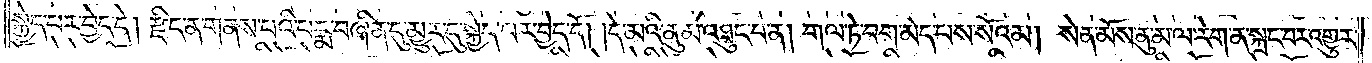སྐྱེད་པར་བྱེད་དེ། རྫིང་ན་གནས་པའི་པདྨ་བཞིན་དུ་མྱུར་དུ་སྐྱེད་པར་བྱེད་དོ། །དེ་མའི་ནུ་མ་འཐུང་བ་ན། གལ་ཏེ་བག་མེད་པས་སོའམ། སེན་མོས་ནུ་མ་ལ་རེག་ན་སྐྲང་བར་འགྱུར་
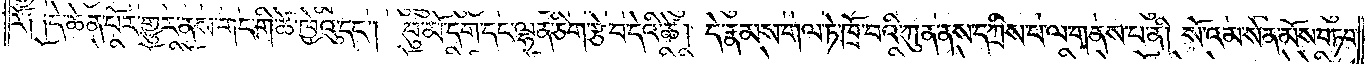རོ༑ ༑དེ་ཆེན་པོར་གྱུར་ནས་གང་གི་ཚེ་ཁྱེའུ་དང༌། བུ་མོ་དག་དང་ལྷན་ཅིག་རྩེ་བ་དེའི་ཚེ། དེ་རྣམས་གལ་ཏེ་ཁྲོ་བའི་ཀུན་ནས་དཀྲིས་པ་ལ་གནས་པ་ནི། སོ་འམ་སེན་མོས་བཏབ་
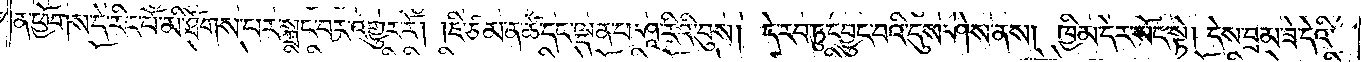ན་ཕྱོགས་དེ་རིང་པོ་མི་ཐོགས་པར་སྐྲང་བར་འགྱུར་རོ། །ཇི་ཙམ་ན་ཚེ་དང་ལྡན་པ་ཤཱ་རིའི་བུས། དེ་རབ་ཏུ་དབྱུང་བའི་དུས་ཤེས་ནས། ཁྱིམ་དེར་སོང་སྟེ། དེས་བྲམ་ཟེ་དེའི་
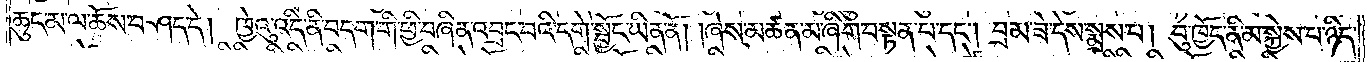ཆུང་མ་ལ་ཆོས་བཤད་དེ། ཁྱེའུ་འདི་ནི་བདག་གི་ཕྱི་བཞིན་འབྲང་བའི་དགེ་སྦྱོང་ཡིན་ནོ། །ཞེས་མཚན་མ་ཞིག་བསྟན་པ་དང༌། བྲམ་ཟེ་དེས་སྨྲས་པ། བུ་ཁྱོད་ནི་མ་སྐྱེས་པ་ཉིད་
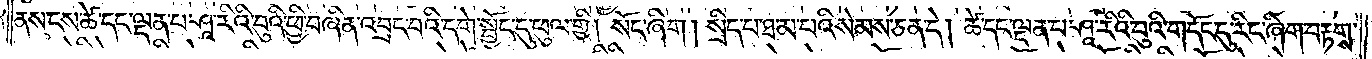ནས་ངས་ཚེ་དང་ལྡན་པ་ཤཱ་རིའི་བུའི་ཕྱི་བཞིན་འབྲང་བའི་དགེ་སྦྱོང་དུ་ཕུལ་གྱི། སོང་ཞིག །སྲིད་པ་ཐ་མ་པའི་སེམས་ཅན་དེ། ཚེ་དང་ལྡན་པ་ཤཱ་རིའི་བུའི་གདོང་དུ་རིང་ཞིག་བརྟགས་
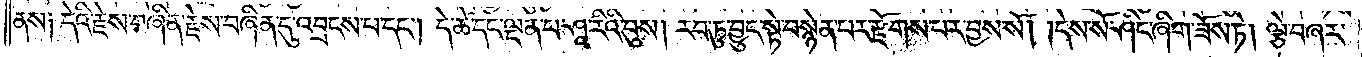ནས། དེའི་རྗེས་བཞིན་རྗེས་བཞིན་དུ་འབྲངས་པ་དང༌། དེ་ཚེ་དང་ལྡན་པ་ཤཱ་རིའི་བུས། རབ་ཏུ་བྱུང་སྟེ་བསྙེན་པར་རྫོགས་པར་བྱས་སོ། །དེས་སོ་ཤིང་ཞིག་ཟོས་ཏེ། ལྕེ་བཞར་
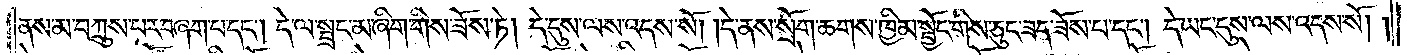ནས་མ་བཀྲུས་པར་བཞག་པ་དང༌། དེ་ལ་སྦྲང་མ་ཞིག་གིས་ཟོས་ཏེ། དེ་དུས་ལས་འདས་སོ། །དེ་ནས་སྲོག་ཆགས་ཁྱིམ་སྦྱོང་གིས་ཅུང་ཟད་ཟོས་པ་དང༌། དེ་ཡང་དུས་ལས་འདས་སོ། །
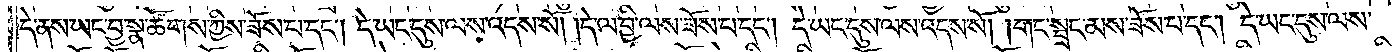དེ་ནས་ཡང་བྱ་སྣ་ཚོགས་ཀྱིས་ཟོས་པ་དང༌། དེ་ཡང་དུས་ལས་འདས་སོ། །དེ་ལ་བྱི་ལས་ཟོས་པ་དང༌། དེ་ཡང་དུས་ལས་འདས་སོ། །གང་སྦྲང་མས་ཟོས་པ་དང༌། དེ་ཡང་དུས་ལས་
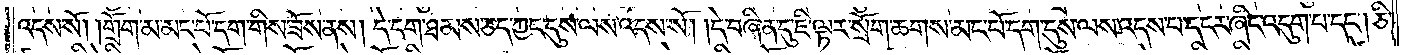འདས་སོ། །གྲོག་མ་མང་པོ་དག་གིས་ཟོས་ནས། དེ་དག་ཐམས་ཅད་ཀྱང་དུས་ལས་འདས་སོ། །དེ་བཞིན་དུ་ཇི་ལྟར་སྲོག་ཆགས་མང་པོ་དག་དུས་ལས་འདས་པ་དངར་ཞིང་འདུག་པ་དང༌། ཅི་
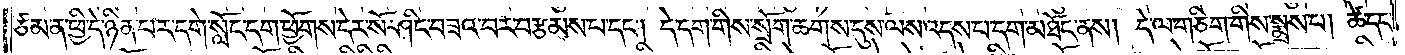ཙམ་ན་ཕྱི་དེ་ཉིན་པར་དགེ་སློང་དག་ཕྱོགས་དེར་སོ་ཤིང་བཟའ་བར་བརྩམས་པ་དང༌། དེ་དག་གིས་སྲོག་ཆགས་དུས་ལས་འདས་པ་དག་མཐོང་ནས། དེ་ལ་གཅིག་གིས་སྨྲས་པ། ཚེ་དང་
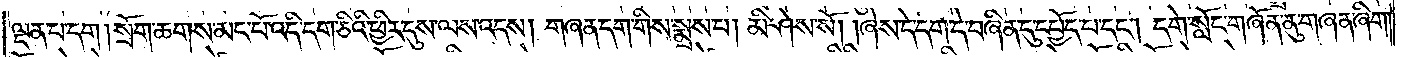ལྡན་པ་དག །སྲོག་ཆགས་མང་པོ་འདི་དག་ཅིའི་ཕྱིར་དུས་ལས་འདས། གཞན་དག་གིས་སྨྲས་པ། མི་ཤེས་སོ། །ཞེས་དེ་དག་དེ་བཞིན་དུ་དཔྱོད་པ་དང༌། དགེ་སློང་གཞོན་ནུ་གཞན་ཞིག་
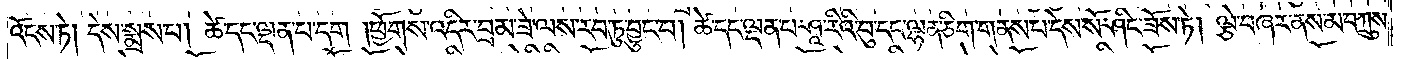འོངས་ཏེ། དེས་སྨྲས་པ། ཚེ་དང་ལྡན་པ་དག །ཕྱོགས་འདིར་བྲམ་ཟེ་ལས་རབ་ཏུ་བྱུང་བ། ཚེ་དང་ལྡན་པ་ཤཱ་རིའི་བུ་དང་ལྷན་ཅིག་གནས་པ་དེས་སོ་ཤིང་ཟོས་ཏེ། ལྕེ་བཞར་ནས་མ་བཀྲུས་
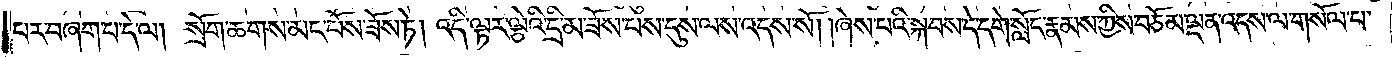པར་བཞག་པ་དེ་ལ། སྲོག་ཆགས་མང་པོས་ཟོས་ཏེ། འདི་ལྟར་ལྕེའི་དྲི་མ་ཟོས་པས་དུས་ལས་འདས་སོ། །ཞེས་པའི་སྐབས་དེ་དགེ་སློང་རྣམས་ཀྱིས་བཅོམ་ལྡན་འདས་ལ་གསོལ་པ་
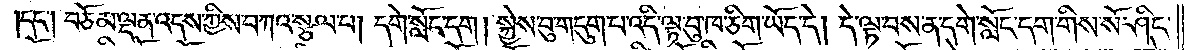དང༌། བཅོམ་ལྡན་འདས་ཀྱིས་བཀའ་སྩལ་པ། དགེ་སློང་དག། སྐྱེས་བུ་གདུག་པ་འདི་ལྟ་བུ་ཁ་ཅིག་ཡོད་དེ། དེ་ལྟ་བས་ན་དགེ་སློང་དག་གིས་སོ་ཤིང་
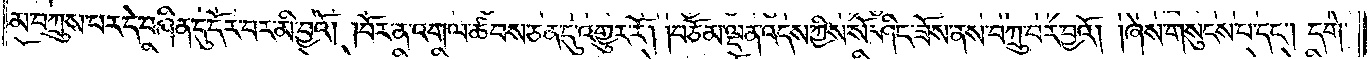མ་བཀྲུས་པར་དེ་བཞིན་དུ་དོར་བར་མི་བྱའོ། །བོར་ན་འགལ་ཚབས་ཅན་དུ་འགྱུར་རོ། །བཅོམ་ལྡན་འདས་ཀྱིས་སོ་ཤིང་ཟོས་ནས་བཀྲུ་བར་བྱའོ། །ཞེས་གསུངས་པ་དང༌། དགེ་
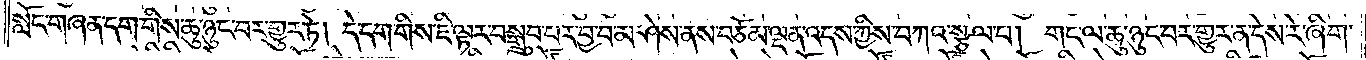སློང་གཞན་དག་གིས་ཆུ་ཉུང་བར་གྱུར་ཏེ། དེ་དག་གིས་ཇི་ལྟར་བསྒྲུབ་པར་བྱ་བ་མ་ཤེས་ནས་བཅོམ་ལྡན་འདས་ཀྱིས་བཀའ་སྩལ་པ། གང་ལ་ཆུ་ཉུང་བར་གྱུར་ན་དེས་རེ་ཞིག་
